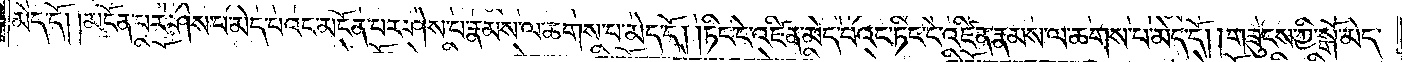མེད་དོ། །མངོན་པར་ཤེས་པ་མེད་པའང་མངོན་པར་ཤེས་པ་རྣམས་ལ་ཆགས་པ་མེད་དོ། །ཏིང་ངེ་འཛིན་མེད་པའང་ཏིང་ངེ་འཛིན་རྣམས་ལ་ཆགས་པ་མེད་དོ། །གཟུངས་ཀྱི་སྒོ་མེད་
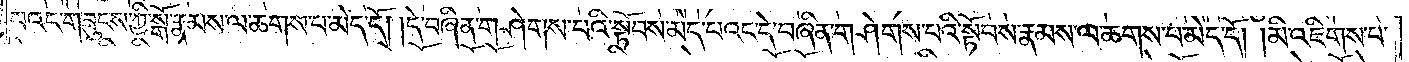པའང་གཟུངས་ཀྱི་སྒོ་རྣམས་ལ་ཆགས་པ་མེད་དོ། །དེ་བཞིན་གཤེགས་པའི་སྟོབས་མེད་པའང་དེ་བཞིན་གཤེགས་པའི་སྟོབས་རྣམས་ལ་ཆགས་པ་མེད་དོ། །མི་འཇིགས་པ་
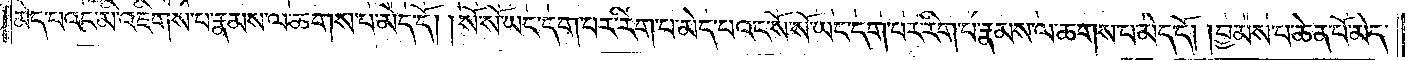མེད་པའང་མི་འཇིགས་པ་རྣམས་ལ་ཆགས་པ་མེད་དོ། །སོ་སོ་ཡང་དག་པར་རིག་པ་མེད་པའང་སོ་སོ་ཡང་དག་པར་རིག་པ་རྣམས་ལ་ཆགས་པ་མེད་དོ། །བྱམས་པ་ཆེན་པོ་མེད་
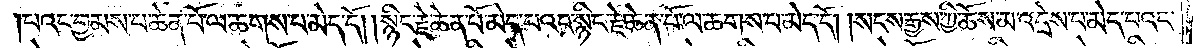པའང་བྱམས་པ་ཆེན་པོ་ལ་ཆགས་པ་མེད་དོ། །སྙིང་རྗེ་ཆེན་པོ་མེད་པའང་སྙིང་རྗེ་ཆེན་པོ་ལ་ཆགས་པ་མེད་དོ། །སངས་རྒྱས་ཀྱི་ཆོས་མ་འདྲེས་པ་མེད་པའང་
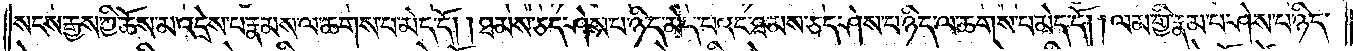སངས་རྒྱས་ཀྱི་ཆོས་མ་འདྲེས་པ་རྣམས་ལ་ཆགས་པ་མེད་དོ། །ཐམས་ཅད་ཤེས་པ་ཉིད་མེད་པའང་ཐམས་ཅད་ཤེས་པ་ཉིད་ལ་ཆགས་པ་མེད་དོ། །ལམ་གྱི་རྣམ་པ་ཤེས་པ་ཉིད་
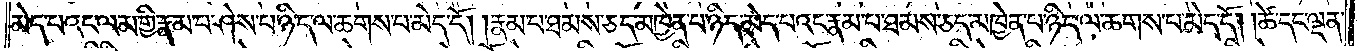མེད་པའང་ལམ་གྱི་རྣམ་པ་ཤེས་པ་ཉིད་ལ་ཆགས་པ་མེད་དོ། །རྣམ་པ་ཐམས་ཅད་མཁྱེན་པ་ཉིད་མེད་པའང་རྣམ་པ་ཐམས་ཅད་མཁྱེན་པ་ཉིད་ལ་ཆགས་པ་མེད་དོ། །ཚེ་དང་ལྡན་
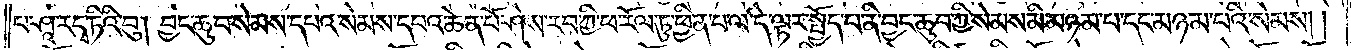པ་ཤཱ་ར་དྭ་ཏིའི་བུ། བྱང་ཆུབ་སེམས་དཔའ་སེམས་དཔའ་ཆེན་པོ་ཤེས་རབ་ཀྱི་ཕ་རོལ་ཏུ་ཕྱིན་པ་ལ་དེ་ལྟར་སྤྱོད་པ་ནི་བྱང་ཆུབ་ཀྱི་སེམས་མི་མཉམ་པ་དང་མཉམ་པའི་སེམས། །
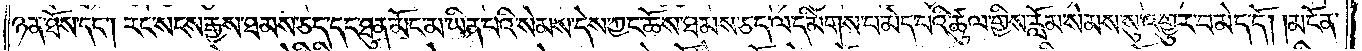ཉན་ཐོས་དང༌། རང་སངས་རྒྱས་ཐམས་ཅད་དང་ཐུན་མོང་མ་ཡིན་པའི་སེམས་དེས་ཀྱང་ཆོས་ཐམས་ཅད་ལ་དམིགས་པ་མེད་པའི་ཚུལ་གྱིས་རློན་སེམས་སུ་འགྱུར་བ་མེད་དོ། །མངོན་
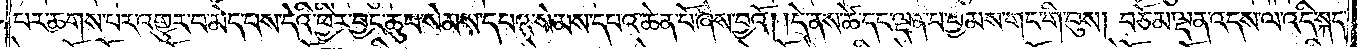པར་ཆགས་པར་འགྱུར་བ་མེད་པས་དེའི་ཕྱིར་བྱང་ཆུབ་སེམས་དཔའ་སེམས་དཔའ་ཆེན་པོ་ཞེས་བྱའོ། །དེ་ནས་ཚེ་དང་ལྡན་པ་བྱམས་གང་གི་བུས། བཅོམ་ལྡན་འདས་ལ་འདི་སྐད་
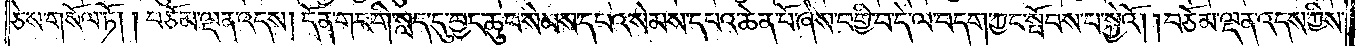ཅེས་གསོལ་ཏོ། །བཅོམ་ལྡན་འདས། དོན་གང་གི་སླད་དུ་བྱང་ཆུབ་སེམས་དཔའ་སེམས་དཔའ་ཆེན་པོ་ཞེས་བགྱི་པ་དེ་ལ་བདག་ཀྱང་སྤོབས་པ་སྐྱེའོ། །བཅོམ་ལྡན་འདས་ཀྱིས་
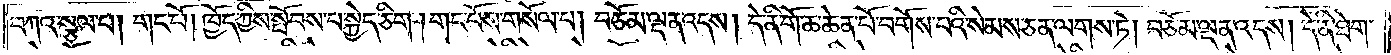བཀའ་སྩལ་པ། གང་པོ། ཁྱོད་ཀྱིས་སྤོབས་པ་སྐྱེད་ཅིག །གང་པོས་གསོལ་པ། བཅོམ་ལྡན་འདས། དེ་ནི་གོ་ཆ་ཆེན་པོ་བགོས་པའི་སེམས་ཅན་ལགས་ཏེ། བཅོམ་ལྡན་འདས། དེ་ནི་ཐེག་
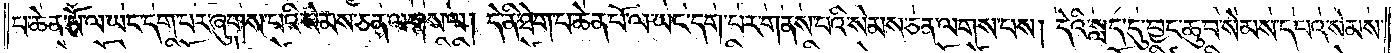པ་ཆེན་པོ་ལ་ཡང་དག་པར་ཞུགས་པའི་སེམས་ཅན་ལགས་ལ། དེ་ནི་ཐེག་པ་ཆེན་པོ་ལ་ཡང་དག་པར་གནས་པའི་སེམས་ཅན་ལགས་པས། དེའི་སླད་དུ་བྱང་ཆུབ་སེམས་དཔའ་སེམས་
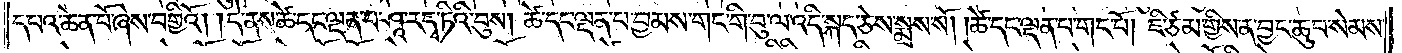དཔའ་ཆེན་པོ་ཞེས་བགྱིའོ། །དེ་ནས་ཚེ་དང་ལྡན་པ་ཤཱ་ར་དྭ་ཏིའི་བུས། ཚེ་དང་ལྡན་པ་བྱམས་གང་གི་བུ་ལ་འདི་སྐད་ཅེས་སྨྲས་སོ། །ཚེ་དང་ལྡན་པ་གང་པོ། ཇི་ཙམ་གྱིས་ན་བྱང་ཆུབ་སེམས་
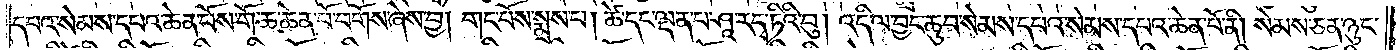དཔའ་སེམས་དཔའ་ཆེན་པོས་གོ་ཆ་ཆེན་པོ་བགོས་ཞེས་བྱ། གང་པོས་སྨྲས་པ། ཚེ་དང་ལྡན་པ་ཤཱ་ར་དྭ་ཏིའི་བུ། འདི་ལ་བྱང་ཆུབ་སེམས་དཔའ་སེམས་དཔའ་ཆེན་པོ་ནི། སེམས་ཅན་ཉུང་
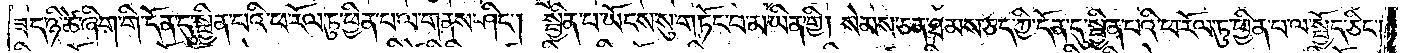ཟད་ཉི་ཚེ་ཞིག་གི་དོན་དུ་སྦྱིན་པའི་ཕ་རོལ་ཏུ་ཕྱིན་པ་ལ་གནས་ཤིང༌། སྦྱིན་པ་ཡོངས་སུ་གཏོང་བ་མ་ཡིན་གྱི། སེམས་ཅན་ཐམས་ཅད་ཀྱི་དོན་དུ་སྦྱིན་པའི་ཕ་རོལ་ཏུ་ཕྱིན་པ་ལ་སྤྱོད་ཅིང༌།
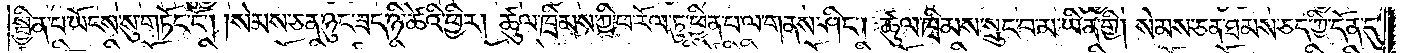སྦྱིན་པ་ཡོངས་སུ་གཏོང་ངོ༌། །སེམས་ཅན་ཉུང་ཟད་ཉི་ཚེའི་ཕྱིར། ཚུལ་ཁྲིམས་ཀྱི་ཕ་རོལ་ཏུ་ཕྱིན་པ་ལ་གནས་ཤིང༌། ཚུལ་ཁྲིམས་སྲུང་བ་མ་ཡིན་གྱི། སེམས་ཅན་ཐམས་ཅད་ཀྱི་དོན་དུ་
